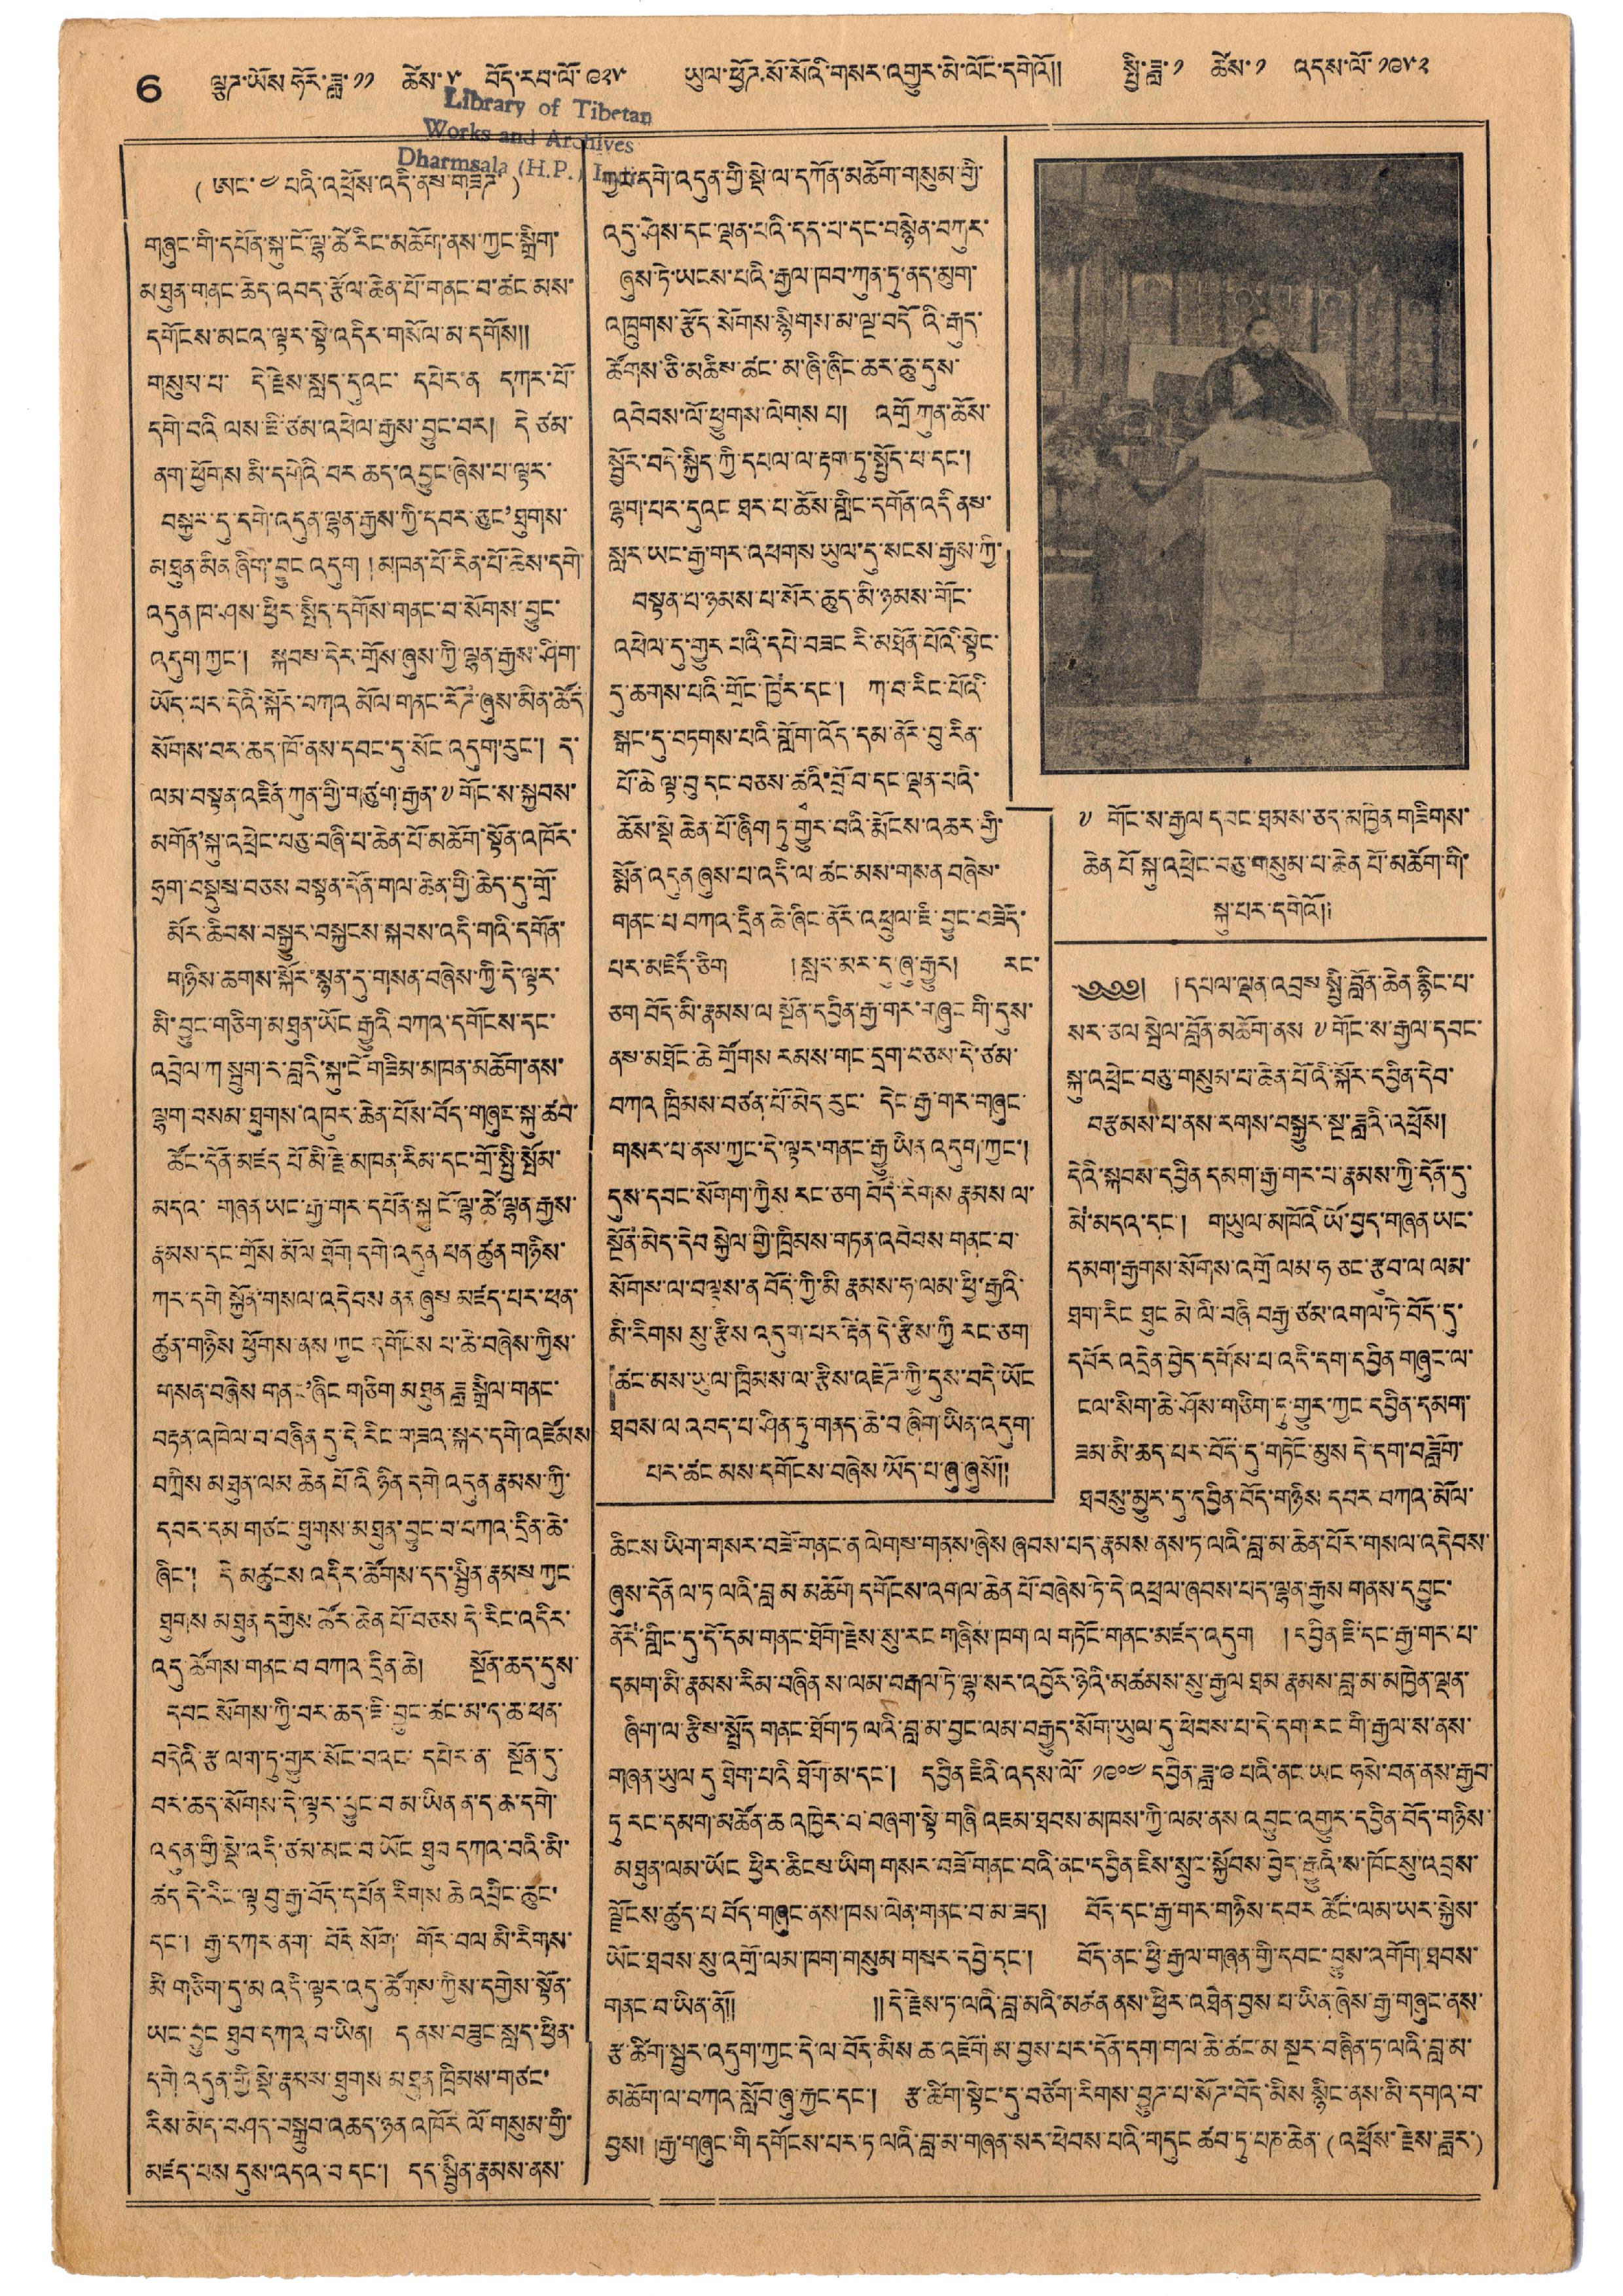6 ལྕཊ་ཡོས་ཧོར་ཟླ་ ༡༡ ཚེས་ ༥ བོད་རབ་ལོ་ ༩༢༥ ཡུལ་ཕྱོཊ་སོ་སོའི་གསར་འགྱུར་མེ་ལོང་དགེའོ།། སྤྱི་ཟླ་ ༡ ཚེས་ ༡ འདས་ལོ་ ༡༩༥༢
(ཨང་ ༤ པའི་འཕྲོས་འདི་ནས་གཟིཊ་)
གཞུང་གི་དཔོན་སྐུ་ངོ་ལྷ་ཚེ་རིང་མཆོག་ནས་ཀྱང་སྒྲིག་
མཐུན་གནང་ཆེ་འབད་རྩོན་ཆེན་པོ་གནང་བ་ཚང་མས་
དགོངས་མངའ་ལྟར་སྟེ་འདིར་གསོལ་མ་དགོས།།
གསུམ་པ་ དེ་རྗེས་སླད་དུའང་ དཔེར་ན་ དཀར་པོ་
དགེ་བའི་ལས་ཇི་ཙམ་འཕེལ་རྒྱས་བྱུང་བར། དེ ཙམ་
ནག་ཕྱོགས་མི་དགེའི་བར་ཆད་འབྱུང་ཞེས་པ་ལྟར་
བསྐྱར་དུ་དགེ་འདུན་ལྷན་རྒྱས་ཀྱི་དབར་ཅུང'ཐུགས་
མཐུན་མིན ཞེས་བྱུང འདུག །མཁན་པོ་རེན་པོ་ཆེས་དགེ་
འདུན་ཁ་ཤས་ཕྱིར་སྤིད་དགོས་གནང་བ་སོགས་བྱུང་
འདུག་ཀྱང་། སྐབས་དེར་གྲོས་ཞུས་ཀྱི་ལྷན་རྒྱས་ཤིག་
ཡོད་པར་དེའི་སྐོར་བཀའ མོལ་གནང་རོཊ་ཞུས་མིན་ཚོད་
སོགས་བར་ཆད་ཁོ་ནས་དབང་དུ་སོང་འདུག་རུང་། ད་
ལམ་བསྟན་འཛིན་ཀུན་གྱི་གཙུག་རྒྱན་༸གོང་ས་སྐྱབས་
མགོན་སྐུ་འཕྲེང་བཅུ་བཞི་པ་ཆེན་པོ་མཆོག་སྟོན་འཁོར་
ཧྲག་བསྡུས་བཅས་བསྟན་དོན་གལ་ཆེན་གྱི་ཆེད་དུ་གྲོ་
མོར་ཆིབས་བསྒྱུར་བསྐྱངས་སྐབས་འདི་གའི་དགོན་
གཉིས་ཆགས་སྐོར་སྙན་དུ་གསན་བཞེས་ཀྱི་དེ་ལྟར་
མི་བྱུང་གཅིག་མཐུན་ཡོང་རྒྱུའི་བཀའ་དགོངས་དང་
འབྲེལ་ཀ་སྦུག་ར་བླའི་སྐུ་ངོ་གཟིམ་མཁན་མཆོག་ནས་
ལྷག་བསམ་ཐུགས་འཁུར་ཆེན་པོས་བོད་གཞུང་སྐུ་ཚབ་
ཚོང་དོན་མཛད པོ་མི་རྗེ་མཁན་རིམ་དང་གྲོ་སྤྱི་སྤོམ་
མདའ་ གཞན་ཡང་རྒྱ་གར་དཔོན་སྐུ ངོ་ལྷ་ཚེ་ལྷན་རྒྱས་
རྣམས་དང་གྲོས་མོལ ཐོག དགེ་འདུན ཕན་ཚུལ་གཉིས་
ཀར་དགེ་སྐྱོན་གསལ་འདེབས ནན ཞུས མཛད་པར་ཕན་
ཚུན་གཉིས ཕྱོགས་ནས ཀྱང་དགོངས་པ་ཆེ་བཞེས་ཀྱིས་
གསན་བཞེས་གནང'ཞིང གཅིག མཐུན ཟླ་སྒྲིལ་གནང་
བརྟན་འཁེལ་བ་བཞིན དུ་དེ་རིང་གཟའ་སྐར་དགེ་འཛོམས
བཀྲིས མཐུན་ལམ་ཆེན་པོའི ཉིན་དགེ འདུན རྣམས་ཀྱི་
དབར་དམ་གཙང་ཐུགས་མཐུན་བྱུང་བ་བཀའ་དྲིན་ཆེ་
ཞིང་། དེ་མཚུངས འདིར་ཚོགས་དད་སྦྱིན་རྣམས་ཀྱང་
ཐུགས མཐུན དགྱེས ཚོར་ཆེན་པོ་བཅས་དེ་རིང་འདིར་
འདུ་ཚོགས་གནང་བ་བཀའ དྲིན་ཆེ། སྔོན་ཆད་དུས་
དབང སོགས་ཀྱི་བར་ཆད་ཇི་བྱུང་ཚང་མ་ད་ཆ་ཕན་
བདེའི་རྩ ལག་ཏུ་གྱུར་སོང་བའང་ དཔེར་ན་ སྔོན་དུ་
བར་ཆད་སོགས་དེ་ལྟར་བྱུང་བ མ་ཡིན ན་ད ཆ་དགེ་
འདུན་གྱི་སྡེ་འདི་ཙམ་མང་བ་ཡོང ཐུབ དཀའ་བའི་མི་
ཚད་དེ་རིང་ལྟ་བུ་རྒྱ་བོད་དཔོན་རིགས ཆེ འབྲིང་ཆུང་
དང་། རྒྱ་དཀར་ནག་ བོད་སོག་ གོར་བལ་མི་རིགས་
མི་གཅིག་དུ་མ་འདི་ལྟར་འདུ་ཚོགས་ཀྱིས་དགྱེས་སྟོན་
ཡང་བྱུང ཐུབ་དཀའ བ་ཡིན། ད ནས་བཟུང་སླད་ཕྱིན་
དགེ་འདུན་གྱི་སྡེ་རྣམས་ཐུགས མཐུན་ཁྲིམས་གཙང་
རིས་མེད་བཤད་བསྒྲུབ་འཆད་ཉན་འཁོར་ལོ་གསུམ་གྱི་
མཛད་པས་དུས་འདའ་བ་དང་། དད་སྤྱིན་རྣམས་ནས་
ཀྱར་དགེ་འདུན་གྱི་སྡེ་ལ་དཀོན་མཆོག་གསུམ་གྱི་
འདུ་ཤེས་དང་ལྡན་པའི་དད་པ་དང་བསྙེད་བཀུར་
ཞུས་ཏེ་ཡངས་པའི་རྒྱལ་ཁབ་ཀུན་ཏུ་ནད་མུག་
འཁྲུགས་རྩོད་སོགས་སྙིགས་མ་ལྔ་བདོ འི་རྒུད་
ཚོགས་ཅི་མཆིས་ཚང་མ་ཞི་ཞིང་ཆར་ཆུ་དུས་
འབེབས་ལོ་ཕྱུགས་ལེགས་པ། འགྲོ་ཀུན་ཆོས་
སྦྱོར་བདེ་སྐྱིད་ཀྱི་དཔལ་ལ་རྟག་ཏུ་སྤྱོད་པ་དང་།
ལྷག་པར་དུའང་ཐར་པ་ཆོས་གླིང་དགོན་འདི ནས་
སླར་ཡང་རྒྱ་གར་འཕགས་ཡུལ་དུ་སངས་རྒྱས་ཀྱི་
བསྟན་པ་མཉམས་པ་སོར་ཆུད་མི་ཉམས་གོང་
འཕེལ་དུ་གྱུར་པའི་དཔེ་བཟང རི་མཐོན་པོའི་སྟེང་
དུ་ཆགས་པའི་གྲོང་ཁྱེར་དང་། ཀ་བ་རིང་པོའི་
སྒང་དུ་བཏགས་པའི་གློག་འོད་དམ་ནོར་བུ་རིན་
པོ་ཆེ་ལྟ་བུ་དང་བཅས་ཚྭའི་བྲོ་བ་དང་ལྡན་པའི་
ཆོས་སྡེ་ཆེན་པོ་ཞིག་ཏུ་གྱུར་བའི་རྨོངས་འཆར་གྱི་
སྨོན་འདུན་ཞུས་པ་འདི་ལ་ཚང་མས་གསན་བཞེས་
གནང་པ་བཀའ་དྲིན་ཆེ་ཞིང་ནོར་འཕྲུལ་ཇི་བྱུང་བཟོད་
པར་མཛོད་ཅིག །སླད་མར་དུ་ཞུ་རྒྱུར། རང་
ཅག བོད་མི་རྣམས་ལ་སྔོན་དབྱིན་རྒྱ་གར་གཞུང་གི་དུས་
ནས་མཐོང་ཆེ་གྲོགས རམས་གང་དྲག་བཅས་དེ་ཙམ་
བཀའ ཁྲིམས་བཙན་པོ་མེད་རུང་ དེང་རྒྱ་གར་གཞུང་
གསར་པ་ནས་ཀྱང་དེ་ལྟར་གནང་རྒྱུ ཡིན་འདུག་ཀྱང་།
དུས་དབང་སོགག་ཀྱིས རང་ཅག་བོད་རིགས རྣམས ལ་
སྔོན་མེད་དེབ་སྐྱེལ་གྱི་ཁྲིམས་གཏན་འབེབས་གནང་བ་
སོགས་ལ་བལྟས་ན་བོད་ཀྱི་མི རྣམས་ཧ་ལམ་ཕྱི་རྒྱའི་
མི་རིགས སུ་རྩིས འདུག་པར་རྟེན་དེ་རྩིས་ཀྱི རང་ཅག་
ཚང་མས་ཡུལ་ཁྲིམས་ལ་རྩིས་འཇོཌ་ཀྱི་དུས་བདེ་ཡོང
ཐབས་ལ འབད་པ་ཤིན་ཏུ་གནད་ཆེ་བ་ཞིག་ཡིན་འདུག་
པར་ཚང་མས་དགོངས་བཞེས ཡོད་པ་ཞུ་ཞུསོ།།
༸ གོང་ས་རྒྱལ་དབང་ཐམས་ཅད་མཁྱེན་གཟིགས་
ཆེན་པོ་སྐུ་འཕྲེང་བཅུ་གསུམ་པ་ཆེན་པོ་མཆོག་གི་
སྐུ་པར་དགེའོ།།
༄༅༅། །དཔལ་ལྡན་འབྲས་སྤྱི་བློན་ཆེན་རྙིང་པ་
སར་ཅལ་སྦེལ་བློན་མཆོག་ནས ༸ གོང་ས་རྒྱལ་དབང་
སྐུ་འཕྲེང་བཅུ་གསུམ་པ་ཆེན་པོའི་སྐོར་དབྱིན་དེབ་
བརྩམས་པ་ནས་རགས་བསྒྱུར་སྔ་ཟླའི་འཕྲོས།
དེའི་སྐབས་དབྱིན་དམག་རྒྱ་གར་པ་རྣམས་ཀྱི་དོན་དུ་
མེ་མདའ་དང་། གཡུལ་མཁོའི་ཡོ་བྱད་གཞན ཡང་
དམག་རྒྱགས་སོགས་འགྲོ་ལམ་ཧ་ཅང་རྩུབ་ལ་ལམ་
ཐག་རིང ཐུང མེ་ལི་བཞི་བརྒྱ་ཙམ་འགལ་ཏེ་བོད་དུ་
དབོར་འདྲེན་བྱེད་དགོས་པ་འདི་དག་དབྱིན་གཞུང་ལ་
ངལ་སིག་ཆེ་ཤོས་གཅིག་ཏུ་གྱུར་ཀྱང་དབྱིན་དམག་
ཟམ་མི་ཆད་པར་བོད་དུ་གཏོང་མུས དེ་དག་བཟློག་
ཐབསུ་མྱུར་དུ་དབྱིན་བོད་གཉིས དབར་བཀའ་མོལ་
ཆིངས་ཡིག་གསར་བཟོ་གནང་ན་ལེགས་གནས་ཞེས་ཞབས་པད་རྣམས་ནས་ཏ་ལའི་བླ་མ་ཆེན་པོར་གསལ་འདེབས་
ཞུས་དོན་ལ་ཏ་ལའི་བླ མ མཆོག་དགོངས་འགལ་ཆེན་པོ་བཞེས་ཏེ་དེ་འཕྲལ་ཞབས་པད་ལྷན་རྒྱས་གནས་དབྱུང་
ནོར་གླིང་དུ་དོ་དམ་གནང་ཐོག་རྗེས་སུ་རང་གཞིས་ཁག་ལ་གཏོང་གནང་མཛད་འདུག །དབྱིན་ཇི་དང་རྒྱ་གར་པ་
དམག་མི་རྣམས་རིམ་བཞིན་ས་ལམ་བརྒལ་ཏེ་ལྷ་སར་འབྱོར་ཉེའི་མཚམས་སུ་རྒྱལ་ཐམ་རྣམས་བླ་མ་མཁྱེན་ལྡན་
ཞིག་ལ་རྩིས་སྤྲོད་གནང་ཐོག་ཏ་ལའི་བླ་མ་བྱང་ལམ་བརྒྱུད་སོག་ཡུལ་དུ་ཕེབས་པ་དེ་དག་རང་གི་རྒྱལ་ས་ནས་
གཞན་ཡུལ དུ་ཐེག་པའི་ཐོག་མ་དང་། དབྱིན་ཇིའི་འདས་ལོ་ ༡༩༠༤ དབྱིན་ཟླ་ ༩ པའི་ནང་ཡང་ཧསེ་བན་ནས་རྒྱབ་
ཏུ་རང་དམག་མཚོན་ཆ་འཁྱེར་བ་བཞག་སྟེ་གཞི་འཇམ་ཐབས་མཁས་ཀྱི་ལམ་ནས་འབྱུང་འགྱུར་དབྱིན་བོད་གཉིས་
མཐུན་ལམ་ཡོང ཕྱིར་ཆིངས་ཡིག་གསར་བཟོ་གནང་བའི་ནང་དབྱིན་ཇིས་སྲུང་སྐྱོབས་བྱེད་རྒྱུའི་ས་ཁོངསུ་འབྲས་
ལྗོངས་ཚུད་པ བོད་གཞུང་ནས་ཁས་ལེན་གནང་བ་མ་ཟད། བོད་དང་རྒྱ་གར་གཉིས་དབར་ཚོང་ལམ་ཡར་སྐྱེས་
ཡོང་ཐབས་སུ་འགྲོ་ལམ་ཁག་གསུམ་གསར་དབྱེ་དང་། བོད་ནང་ཕྱི་རྒྱལ་གཞན་གྱི་དབང་བྱུས་འགོག་ཐབས་
གནང་བ་ཡིན་ནོ།། །།དེ་རྗེས་ཏ་ལའི་བླ་མའི་མཚན་ནས་ཕྱིར་འཐེན་བྱས་པ་ཡིན་ཞེས་རྒྱ་གཞུང་ནས་
རྩ་ཚིག་སྤྱར་འདུག་ཀྱང་དེ་ལ་བོད་མིས་ཆ་འཇོག་མ་བྱས་པར་དོན་དག་གལ་ཆེ་ཚང་མ་སྔར་བཞིན་ཏ་ལའི་བླ་མ་
མཆོག་ལ་བཀའ་སློབ་ཞུ་རྐྱང་དང་། རྩ་ཚིག་སྟེང་དུ་བཅོག་རིགས་བྱུཊ་པ་སོཊ་བོད་མིས་སྙིང་ནས་མི་དགའ་བ་
བྱས། །རྒྱ་གཞུང་གི་དགོངས་པར་ཏ་ལའི་བླ་མ་གཞན་སར་ཕེབས་པའི་གདུང་ཚབ་ཏུ་པཎ་ཆེན་
(འཕྲོས་རྗེས་ཟླར)
